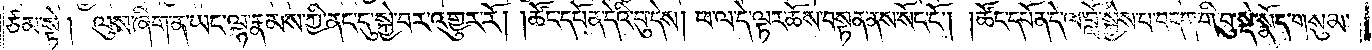ཙམ་སྟེ། ལུས་ཞིག་ན་ཡང་ལྷ་རྣམས་ཀྱི་ནང་དུ་སྐྱེ་བར་འགྱུར་རོ། །ཚོང་དཔོན་དེའི་བུ་དེས། ཕ་ལ་དེ་ལྟར་ཆོས་བསྟན་ནས་སོང་ངོ༌། །ཚོང་དཔོན་དེ་ལ་བློ་སྐྱེས་པ་བདག་གི་བུ་སྡེ་སྣོད་གསུམ་
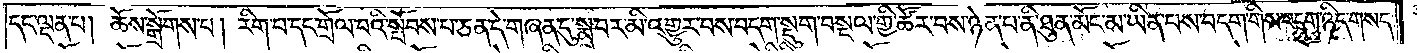དང་ལྡན་པ། ཆོས་སྒྲོགས་པ། རིག་པ་དང་གྲོལ་བའི་སྤོབས་པ་ཅན་དེ་གཞན་དུ་སྨྲ་བར་མི་འགྱུར་བས་བདག་སྡུག་བསྔལ་གྱི་ཚོར་བས་ཉེན་པ་ནི་ཐུན་མོང་མ་ཡིན་པས་བདག་གིས་བདག་ཉིད་གསད་
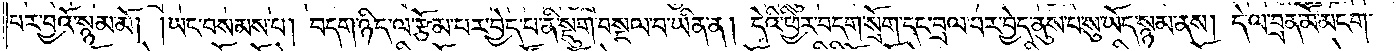པར་བྱའོ་སྙམ་མོ། །ཡང་བསམས་པ། བདག་ཉིད་ལ་རྩོམ་པར་བྱེད་པ་ནི་སྡུག་བསྔལ་བ་ཡིན་ན། དེའི་ཕྱིར་བདག་སྲོག་དང་བྲལ་བར་བྱེད་ནུས་པ་སུ་ཡོད་སྙམ་ནས། དེ་ལ་བྲན་མོ་མངག་
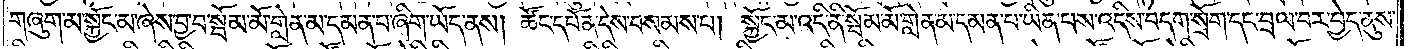གཞུག་མ་སྐྱོང་མ་ཞེས་བྱ་བ་སྦོམ་མོ་གླེན་མ་དམན་པ་ཞིག་ཡོད་ནས། ཚོང་དཔོན་དེས་བསམས་པ། སྐྱོང་མ་འདི་ནི་སྦོམ་མོ་གླེན་མ་དམན་པ་ཡིན་པས་འདིས་བདག་སྲོག་དང་བྲལ་བར་བྱེད་ནུས་
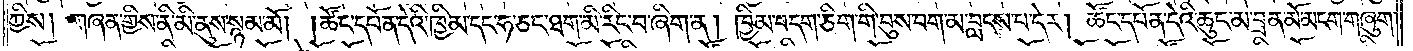ཀྱིས། གཞན་གྱིས་ནི་མི་ནུས་སྙམ་མོ། །ཚོང་དཔོན་དེའི་ཁྱིམ་དང་ཧ་ཅང་ཐག་མི་རིང་བ་ཞིག་ན། ཁྱིམ་བདག་ཅིག་གི་བུས་བག་མ་བླངས་པ་དེར། ཚོང་དཔོན་དེའི་ཆུང་མ་བྲན་མོ་མངག་གཞུག་
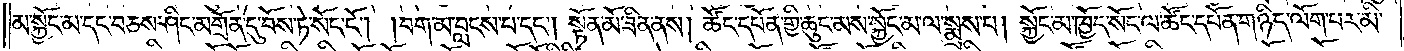མ་སྐྱོང་མ་དང་བཅས་ཤིང་མགྲོན་དུ་བོས་ཏེ་སོང་ངོ༌། །བག་མ་བླངས་པ་དང༌། སྟོན་མོ་ཟིན་ནས། ཚོང་དཔོན་གྱི་ཆུང་མས་སྐྱོང་མ་ལ་སྨྲས་པ། སྐྱོང་མ་ཁྱོད་སོང་ལ་ཚོང་དཔོན་གཉིད་ལོག་པར་མི་
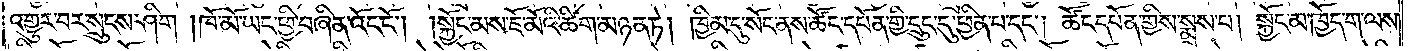འགྱུར་བར་སྲུང་ཤིག །ཁོ་མོ་ཡང་ཕྱི་བཞིན་འོང་ངོ༌། །སྐྱོང་མས་ཇོ་མོའི་ཚིག་མཉན་ཏེ། ཁྱིམ་དུ་སོང་ནས་ཚོང་དཔོན་གྱི་དྲུང་དུ་ཕྱིན་པ་དང༌། ཚོང་དཔོན་གྱིས་སྨྲས་པ། སྐྱོང་མ་ཁྱོད་ག་ལས་
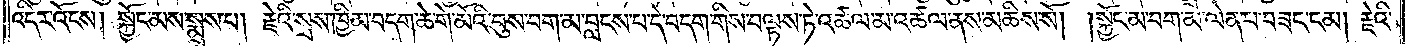འདིར་འོངས། སྐྱོང་མས་སྨྲས་པ། རྗེའི་སྲས་ཁྱིམ་བདག་ཆེ་གེ་མོའི་བུས་བག་མ་བླངས་པ་དེ་བདག་གིས་བལྟས་ཏེ་འཚལ་མ་འཚལ་ནས་མཆིས་སོ། །སྐྱོང་མ་བག་མ་ལེན་པ་བཟང་ངམ། རྗེའི་
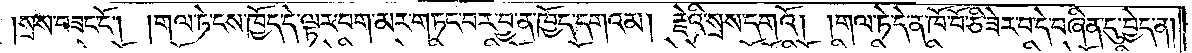།སྲས་བཟང་ངོ༌། །གལ་ཏེ་ངས་ཁྱོད་དེ་ལྟར་བག་མར་གཏང་བར་བྱ་ན་ཁྱོད་དགའམ། རྗེའི་སྲས་དགའོ། །གལ་ཏེ་དེ་ན་ཁོ་བོ་ཅི་ཟེར་བ་དེ་བཞིན་དུ་བྱེད་ན།
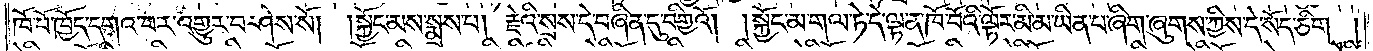ཁོ་བོ་ཁྱོད་དགའ་བར་འགྱུར་བ་ཤེས་སོ། །སྐྱོང་མས་སྨྲས་པ། རྗེའི་སྲས་དེ་བཞིན་དུ་བགྱིའོ། །སྐྱོང་མ་གལ་ཏེ་དེ་ལྟ་ན་ཁོ་བོའི་ལྟོར་མི་མ་ཡིན་པ་ཞིག་ཞུགས་ཀྱིས་དེ་སོད་ཅིག །
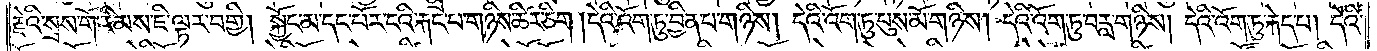རྗེའི་སྲས་གོ་རིམས་ཇི་ལྟར་བགྱི། སྐྱོང་མ་དང་པོར་ངའི་རྐང་པ་གཉིས་ཚིར་ཅིག །དེའི་འོག་ཏུ་བྱིན་པ་གཉིས། དེའི་འོག་ཏུ་པུས་མོ་གཉིས། དེའི་འོག་ཏུ་བརླ་གཉིས། དེའི་འོག་ཏུ་རྐེད་པ། དེའི་
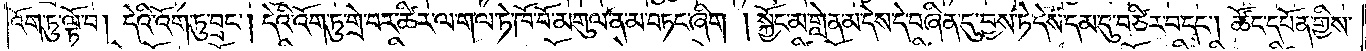འོག་ཏུ་ལྟོ་བ། དེའི་འོག་ཏུ་བྲང༌། དེའི་འོག་ཏུ་གྲེ་བར་ཚིར་ལ་གལ་ཏེ་ཁོ་བོ་མགུལ་ན་མ་བཏང་ཞིག །སྐྱོང་མ་གླེན་མ་དེས་དེ་བཞིན་དུ་བྱས་ཏེ་དེས་དམ་དུ་བཙིར་བ་དང༌། ཚོང་དཔོན་གྱིས་
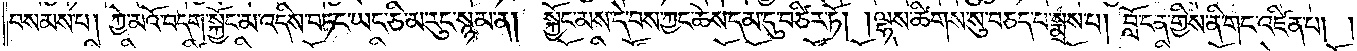བསམས་པ། ཀྱེ་མའོ་བདག་སྐྱོང་མ་འདིས་བཏང་ཡང་ཅི་མ་རུང་སྙམ་ན། སྐྱོང་མས་དེ་བས་ཀྱང་ཆེས་དམ་དུ་བཙིར་ཏོ། །ལྷས་ཚིགས་སུ་བཅད་པ་སྨྲས་པ། བློ་ངན་གྱིས་ནི་གང་འཛིན་པ། །
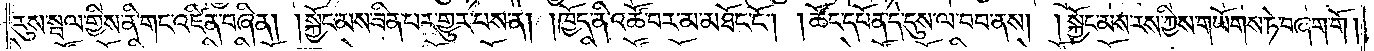རུས་སྦལ་གྱིས་ནི་གང་འཛིན་བཞིན། །སྐྱོང་མས་ཟིན་པར་གྱུར་པས་ན། །ཁྱོད་ནི་འཚོ་བར་མ་མཐོང་ངོ༌། །ཚོང་དཔོན་དེ་དུས་ལ་བབ་ནས། །སྐྱོང་མས་རས་ཀྱིས་གཡོགས་ཏེ་བཞག་གོ །
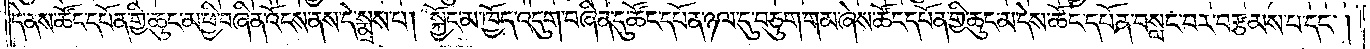དེ་ནས་ཚོང་དཔོན་གྱི་ཆུང་མ་ཕྱི་བཞིན་འོངས་ནས་དེ་སྨྲས་པ། སྐྱོང་མ་ཁྱོད་འདུག་བཞིན་དུ་ཚོང་དཔོན་ཉལ་དུ་བཅུག་གམ་ཞེས་ཚོང་དཔོན་གྱི་ཆུང་མ་དེས་ཚོང་དཔོན་བསླང་བར་བརྩམས་པ་དང༌།
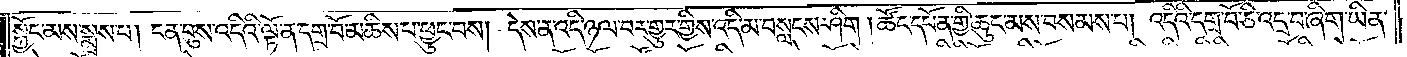སྐྱོང་མས་སྨྲས་པ། ངན་བུས་འདིའི་ལྟོ་ན་དགྲ་བོ་མཆིས་པ་ཕྱུང་བས། དེས་ན་འདི་ཉལ་བར་གྱུར་གྱིས་འདི་མ་བསླངས་ཤིག །ཚོང་དཔོན་གྱི་ཆུང་མས་བསམས་པ། འདིའི་དགྲ་བོ་ཅི་འདྲ་བ་ཞིག་ཡིན་
